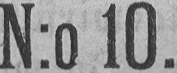N:o 10.
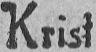Krislillissiveellinen
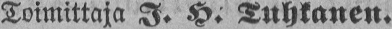Toimittaja I.H. Tuhkanen.
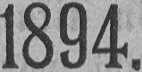1894.
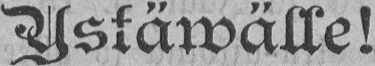Ystäwälle!
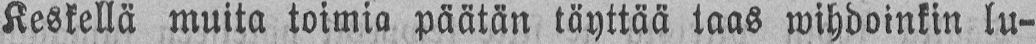Keskellä muita toimia päätän täyttää taas wihdoinkin lu-
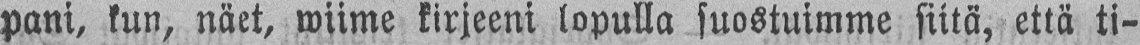pani, kun, näet, wiime kirjeeni lopulla suostuimme siitä, että ti-
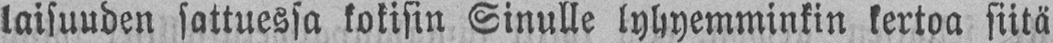laisuuden sattuessa kokisin Sinulle lyhyemminkin kertoa siitä
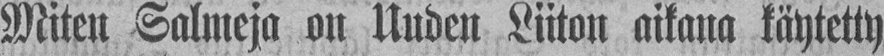Miten Salmeja on Uuden Liiton aikana käytetty.
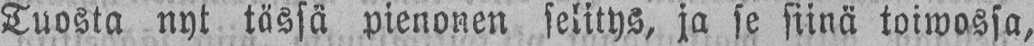Tuosta nyt tässä pienonen selitys, ja se siinä toiwossa,
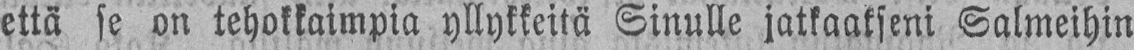että se on tehokkaimpia yllykkeitä Sinulle jatkaakseni Salmeihin
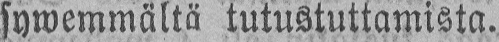sywemmältä tutustuttamista.
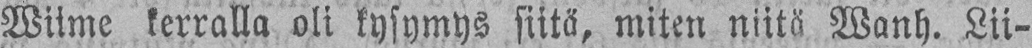Wiime kerralla oli kysymys siitä, miten niitä Wanh. Lii-
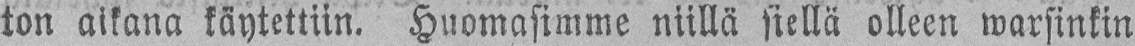ton aikana käytettiin. Huomasimme niillä siellä olleen warsinkin
